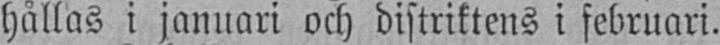hållas i januari och distriktens i februari.
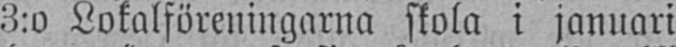3:o Lokalföreningarna skola i januari
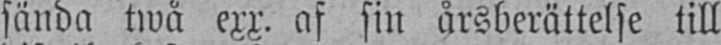sända twå exx. af sin årsberättelse till
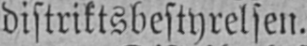distriktsbestyrelsen.
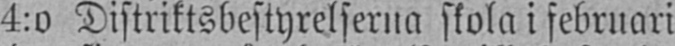4:o Distriktsbestyrelserna skola i februari
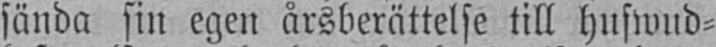sända sin egen årsberättelse till hufwud-
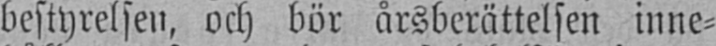bestyrelsen, och bör årsberättelsen inne-
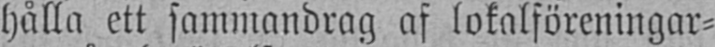hålla ett sammandrag af lokalföreningar-
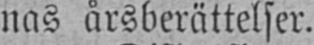nas årsberättelser.
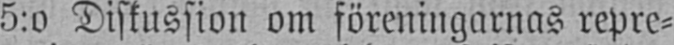5:o Diskussion om föreningarnas repre-
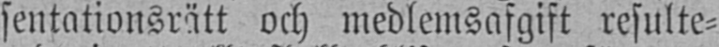sentationsrätt och medlemsafgift resulte-
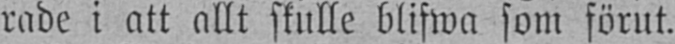rade i att allt skulle blifwa som förut.
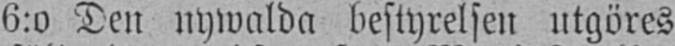6:o Den nywalda bestyrelsen utgöres
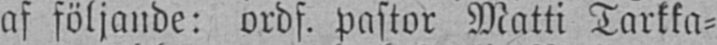af följande: ordf. pastor Matti Tarkka-
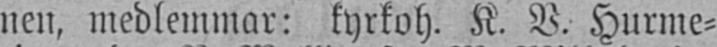nen, medlemmar: kyrkoh. K. V. Hurme-
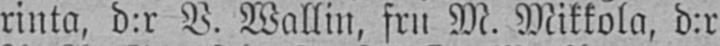rinta, d:r V. Wallin, fru M. Mikkola, d:r
